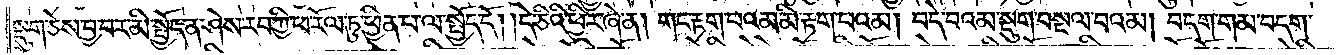སྡུག་ཅེས་བྱ་བར་མི་སྤྱོད་ན་ཤེས་རབ་ཀྱི་ཕ་རོལ་ཏུ་ཕྱིན་པ་ལ་སྤྱོད་དོ། །དེ་ཅིའི་ཕྱིར་ཞེ་ན། གང་རྟག་པའམ་མི་རྟག་པའམ། བདེ་བའམ་སྡུག་བསྔལ་བའམ། བདག་གམ་བདག་
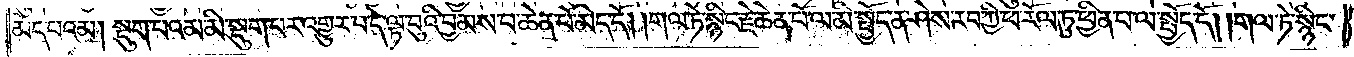མེད་པའམ། སྡུག་པའམ་མི་སྡུག་པར་འགྱུར་བ་དེ་ལྟ་བུའི་བྱམས་པ་ཆེན་པོ་མེད་དོ། །གལ་ཏེ་སྙིང་རྗེ་ཆེན་པོ་ལ་མི་སྤྱོད་ན་ཤེས་རབ་ཀྱི་ཕ་རོལ་ཏུ་ཕྱིན་པ་ལ་སྤྱོད་དོ། །གལ་ཏེ་སྙིང་
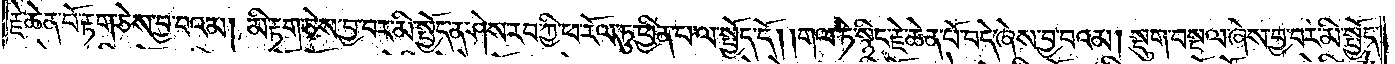རྗེ་ཆེན་པོ་རྟག་ཅེས་བྱ་བའམ། མི་རྟག་ཅེས་བྱ་བར་མི་སྤྱོད་ན་ཤེས་རབ་ཀྱི་ཕ་རོལ་ཏུ་ཕྱིན་པ་ལ་སྤྱོད་དོ། །གལ་ཏེ་སྙིང་རྗེ་ཆེན་པོ་བདེ་ཞེས་བྱ་བའམ། སྡུག་བསྔལ་ཞེས་བྱ་བར་མི་སྤྱོད་
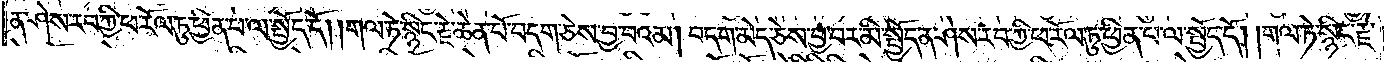ན་ཤེས་རབ་ཀྱི་ཕ་རོལ་ཏུ་ཕྱིན་པ་ལ་སྤྱོད་དོ། །གལ་ཏེ་སྙིང་རྗེ་ཆེན་པོ་བདག་ཅེས་བྱ་བའམ། བདག་མེད་ཅེས་བྱ་བར་མི་སྤྱོད་ན་ཤེས་རབ་ཀྱི་ཕ་རོལ་ཏུ་ཕྱིན་པ་ལ་སྤྱོད་དོ། །གལ་ཏེ་སྙིང་རྗེ་
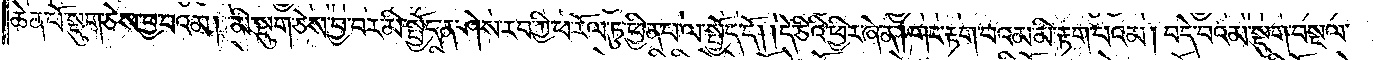ཆེན་པོ་སྡུག་ཅེས་བྱ་བའམ། མི་སྡུག་ཅེས་བྱ་བར་མི་སྤྱོད་ན་ཤེས་རབ་ཀྱི་ཕ་རོལ་ཏུ་ཕྱིན་པ་ལ་སྤྱོད་དོ། །དེ་ཅིའི་ཕྱིར་ཞེ་ན། གང་རྟག་པའམ་མི་རྟག་པའམ། བདེ་བའམ་སྡུག་བསྔལ་
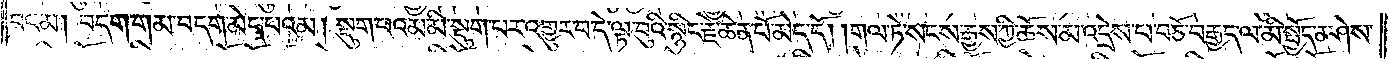བའམ། བདག་གམ་བདག་མེད་པའམ། སྡུག་པའམ་མི་སྡུག་པར་འགྱུར་བ་དེ་ལྟ་བུའི་སྙིང་རྗེ་ཆེན་པོ་མེད་དོ། །གལ་ཏེ་སངས་རྒྱས་ཀྱི་ཆོས་མ་འདྲེས་པ་བཅོ་བརྒྱད་ལ་མི་སྤྱོད་ན་ཤེས་
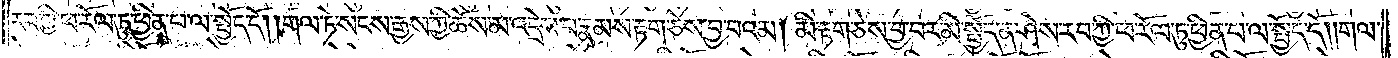རབ་ཀྱི་ཕ་རོལ་ཏུ་ཕྱིན་པ་ལ་སྤྱོད་དོ། །གལ་ཏེ་སངས་རྒྱས་ཀྱི་ཆོས་མ་འདྲེས་པ་རྣམས་རྟག་ཅེས་བྱ་བའམ། མི་རྟག་ཅེས་བྱ་བར་མི་སྤྱོད་ན་ཤེས་རབ་ཀྱི་ཕ་རོལ་ཏུ་ཕྱིན་པ་ལ་སྤྱོད་དོ། །གལ་
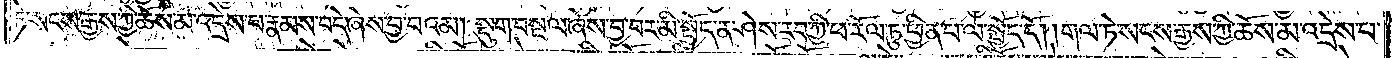ཏེ་སངས་རྒྱས་ཀྱི་ཆོས་མ་འདྲེས་པ་རྣམས་བདེ་ཞེས་བྱ་བའམ། སྡུག་བསྔལ་ཞེས་བྱ་བར་མི་སྤྱོད་ན་ཤེས་རབ་ཀྱི་ཕ་རོལ་ཏུ་ཕྱིན་པ་ལ་སྤྱོད་དོ། །གལ་ཏེ་སངས་རྒྱས་ཀྱི་ཆོས་མ་འདྲེས་པ་
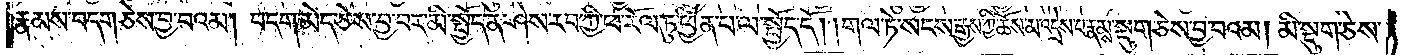རྣམས་བདག་ཅེས་བྱ་བའམ། བདག་མེད་ཅེས་བྱ་བར་མི་སྤྱོད་ན་ཤེས་རབ་ཀྱི་ཕ་རོལ་ཏུ་ཕྱིན་པ་ལ་སྤྱོད་དོ། །གལ་ཏེ་སངས་རྒྱས་ཀྱི་ཆོས་མ་འདྲེས་པ་རྣམས་སྡུག་ཅེས་བྱ་བའམ། མི་སྡུག་ཅེས་
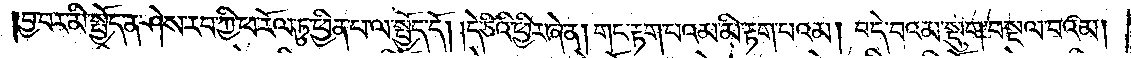བྱ་བར་མི་སྤྱོད་ན་ཤེས་རབ་ཀྱི་ཕ་རོལ་ཏུ་ཕྱིན་པ་ལ་སྤྱོད་དོ། །དེ་ཅིའི་ཕྱིར་ཞེ་ན། གང་རྟག་པའམ་མི་རྟག་པའམ། བདེ་བའམ་སྡུག་བསྔལ་བའམ།
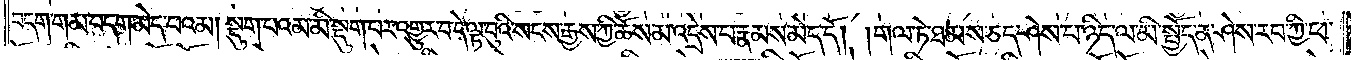བདག་གམ་བདག་མེད་པའམ། སྡུག་པའམ་མི་སྡུག་པར་འགྱུར་བ་དེ་ལྟ་བུའི་སངས་རྒྱས་ཀྱི་ཆོས་མ་འདྲེས་པ་རྣམས་མེད་དོ། །གལ་ཏེ་ཐམས་ཅད་ཤེས་པ་ཉིད་ལ་མི་སྤྱོད་ན་ཤེས་རབ་ཀྱི་ཕ་
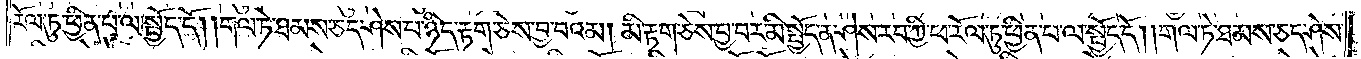རོལ་ཏུ་ཕྱིན་པ་ལ་སྤྱོད་དོ། །གལ་ཏེ་ཐམས་ཅད་ཤེས་པ་ཉིད་རྟག་ཅེས་བྱ་བའམ། མི་རྟག་ཅེས་བྱ་བར་མི་སྤྱོད་ན་ཤེས་རབ་ཀྱི་ཕ་རོལ་ཏུ་ཕྱིན་པ་ལ་སྤྱོད་དོ། །གལ་ཏེ་ཐམས་ཅད་ཤེས་
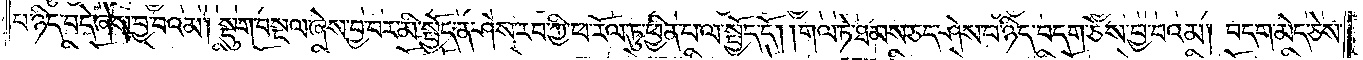པ་ཉིད་བདེ་ཞེས་བྱ་བའམ། སྡུག་བསྔལ་ཞེས་བྱ་བར་མི་སྤྱོད་ན་ཤེས་རབ་ཀྱི་ཕ་རོལ་ཏུ་ཕྱིན་པ་ལ་སྤྱོད་དོ། །གལ་ཏེ་ཐམས་ཅད་ཤེས་པ་ཉིད་བདག་ཅེས་བྱ་བའམ། བདག་མེད་ཅེས་
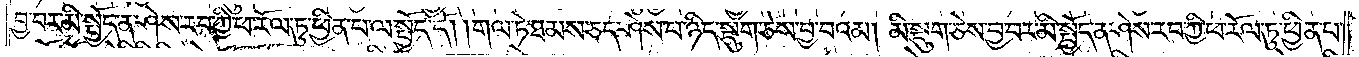བྱ་བར་མི་སྤྱོད་ན་ཤེས་རབ་ཀྱི་ཕ་རོལ་ཏུ་ཕྱིན་པ་ལ་སྤྱོད་དོ། །གལ་ཏེ་ཐམས་ཅད་ཤེས་པ་ཉིད་སྡུག་ཅེས་བྱ་བའམ། མི་སྡུག་ཅེས་བྱ་བར་མི་སྤྱོད་ན་ཤེས་རབ་ཀྱི་ཕ་རོལ་ཏུ་ཕྱིན་པ་
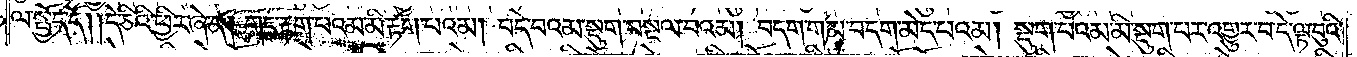ལ་སྤྱོད་དོ། །དེ་ཅིའི་ཕྱིར་ཞེ་ན། གང་རྟག་པའམ་མི་རྟག་པའམ། བདེ་བའམ་སྡུག་བསྔལ་བའམ། བདག་གམ་བདག་མེད་པའམ། སྡུག་པའམ་མི་སྡུག་པར་འགྱུར་བ་དེ་ལྟ་བུའི་
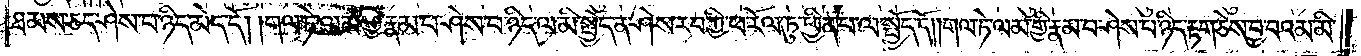ཐམས་ཅད་ཤེས་པ་ཉིད་མེད་དོ། །གལ་ཏེ་ལམ་གྱི་རྣམ་པ་ཤེས་པ་ཉིད་ལ་མི་སྤྱོད་ན་ཤེས་རབ་ཀྱི་ཕ་རོལ་ཏུ་ཕྱིན་པ་ལ་སྤྱོད་དོ། །གལ་ཏེ་ལམ་གྱི་རྣམ་པ་ཤེས་པ་ཉིད་རྟག་ཅེས་བྱ་བའམ་མི་
